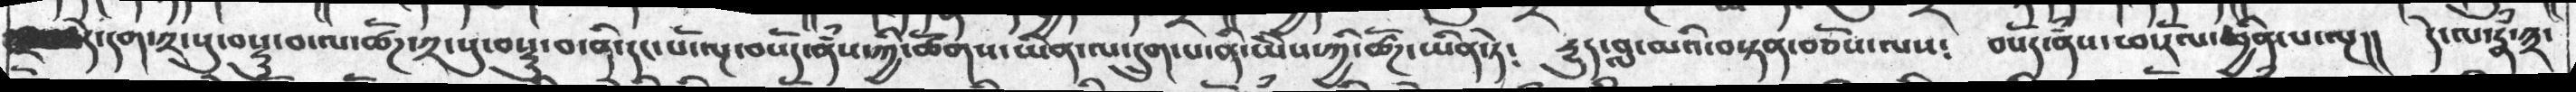དེ་དག་༢་སུ་བསྡུ་བ་ལ་ཚོཌ་༢་སུ་བསྡུ་བ་ནི་དང་པོ་ལྔ་བསོད་ནཾས་ཀྱི་ཚོགས་ཡིན་ལ་དྲུག་པ་ནི་ཡེེས་ཀྱི་ཚོཌ་ཡིན་ཏེ༴    དྱུད་བླ་མའི་བསྟན་བཅོས་ལས༴   བསོད་ནཾས་ཕ་རོལ་ཕྱིན་པ་ལྔ།།  དེ་ལ་རྣ་༣་
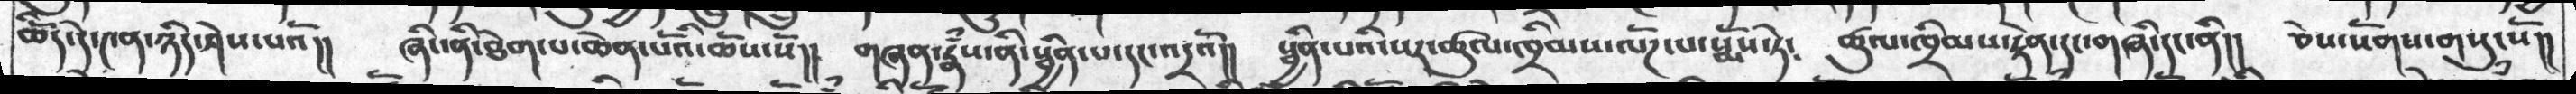ཆོིད་དེ་༤ན་ཉིད་ཤེས་པའོ།།  ཞིང་ནི་ཐེག་པ་ཆེན་པོའི་ཆོས་སོ།།  གཞན་རྣཾས་ནི་སྦྱིན་པ་དང་འདྲའོ།།  སྦྱིན་པའི་སར་ཚུལ་ཁྲིམས་ལོཌ་པ་སྨོས་ཏེ༴  ཚུལ་ཁྲིམས་རྟེན་དང་གཞི་དང་ནི།།  ཅེས་སོགས་གསུངསོ།།
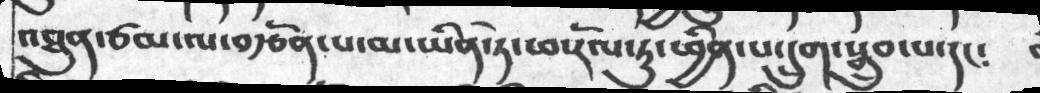འཐུན་ཙམ་ལ་བརྩོན་པ་མ་ཡིན་ཏེ་ཕ་རོལ་ཏུ་ཕྱིན་པ་དྲུག་སྒྲུབ་པ་དང༴
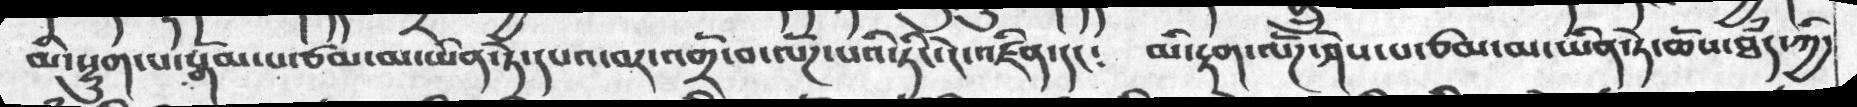མི་སྡུག་པ་སྒོམ་པ་ཙམ་མ་ཡིན་ཏེ་དཔའ་བར་འགྲོ་བ་ལོཌ་པའི་ཏིང་ངེ་འཛིན་དང༴  མི་རྟག་ལོཌ་ཤེས་པ་ཙམ་མ་ཡིན་ཏེ་ཆོས་ཐཾད་ཀྱི་
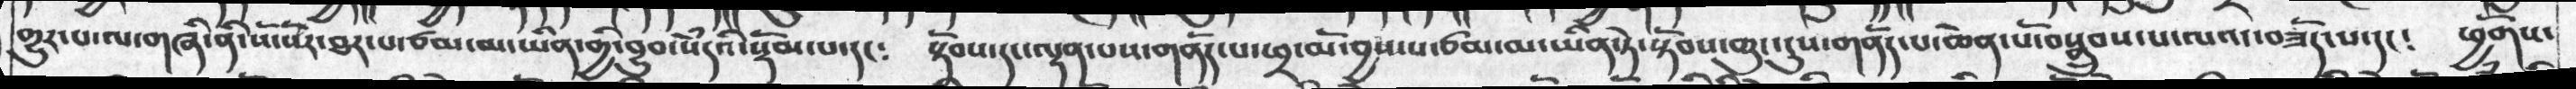གྱུར་པ་ལ་གཞི་ནི་སོ་སོར་ཐར་པ་ཙམ་མ་ཡིན་གྱི་བྱུབ་སེཾདའི་སྡོམ་པ་དང༴  སྟོབས་དང་ལྡན་པས་གནོད་པ་ཕྲ་མོ་བྱས་པ་ཙམ་མ་ཡིན་ཏེ་སྟོབས་ཆུང་ངུས་གནོད་པ་ཆེན་པོ་བསྒྲུབས་པ་ལའང་བཟོད་པ་དང༴  ཕྱོགས་
